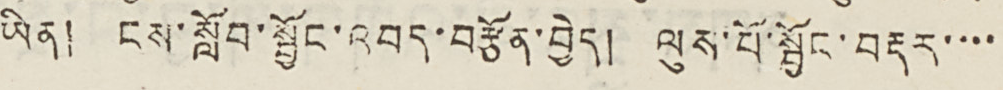ཡིན། ངས་སློབ་སྦྱོང་འབད་བརྩོན་བྱེད། ལུས་པོ་སྦྱོང་བརྡར་་་་
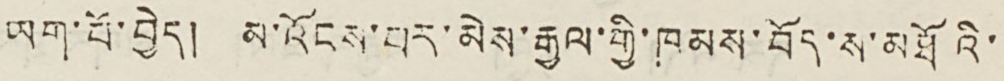ཡག་པོ་བྱེད། མ་འོངས་བར་མེས་རྒྱལ་གྱི་ཁམས་བོད་ས་མཐོའི་
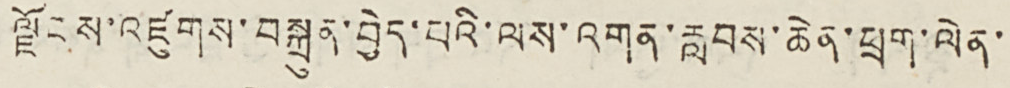ལྗོངས་འཛུགས་བསྐྲུན་བྱེད་པའི་ལས་འགན་རླབས་ཆེན་ཕྲག་ལེན་
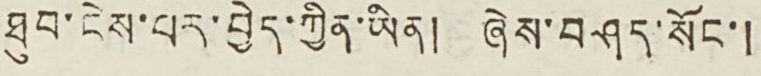ཐུབ་ངེས་པར་བྱེད་ཀྱིན་ཡིན། ཞེས་བཤད་སོང་།
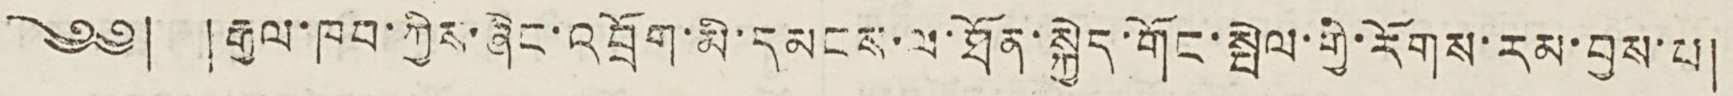༄༅། །རྒྱལ་ཁབ་ཀྱིས་ཞིང་འབྲོག་མི་དམངས་ལ་ཐོན་སྐྱེད་གོང་སྤེལ་གྱི་རོགས་རམ་བྱས་པ།
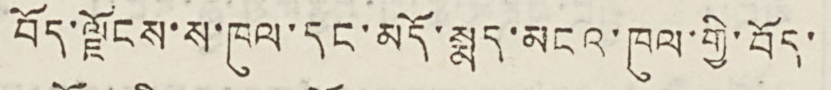བོད་ལྗོངས་ས་ཁུལ་དང་མདོ་སྨད་མངའ་ཁུལ་གྱི་བོད་
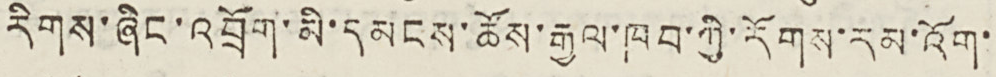རིགས་ཞིང་འབྲོག་མི་དམངས་ཚོས་རྒྱལ་ཁབ་ཀྱི་རོགས་རམ་འོག་
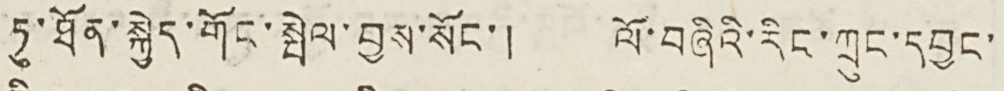ཏུ་ཐོན་སྐྱེད་གོང་སྤེལ་བྱས་སོང་། ལོ་བཞིའི་རིང་ཀྲུང་དབྱང་
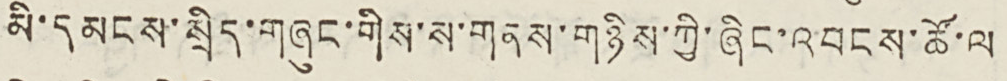མི་དམངས་སྲིད་གཞུང་གིས་ས་གནས་གཉིས་ཀྱི་ཞིང་འབངས་ཚོ་ལ་
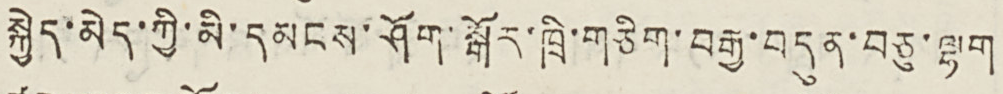སྐྱེད་མེད་ཀྱི་མི་དམངས་ཤོག་སྒོར་ཁྲི་གཅིག་བརྒྱ་བདུན་བཅུ་ལྷག
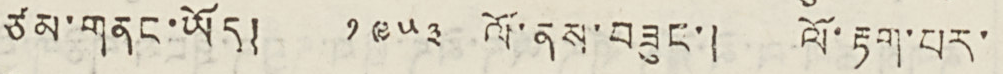ཙམ་གནང་ཡོད། ༡༩༥༣ ལོ་ནས་བཟུང་། ལོ་རྟག་པར་
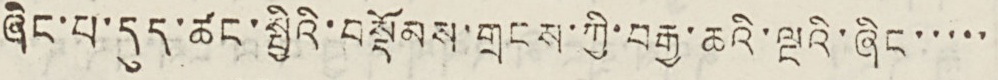ཞིང་པ་དུད་ཚང་སྤྱིའི་བསྡོམས་གྲངས་ཀྱི་བརྒྱ་ཆའི་ལྔའི་ཞིང་་་་་
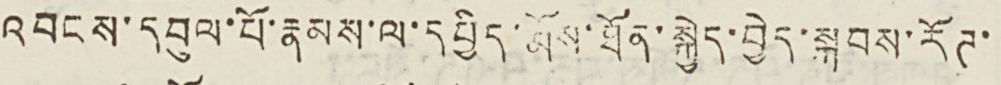འབངས་དབུལ་པོ་རྣམས་ལ་དཔྱིད་རྨོས་ཐོན་སྐྱེད་བྱེད་སྐབས་རོཊ་
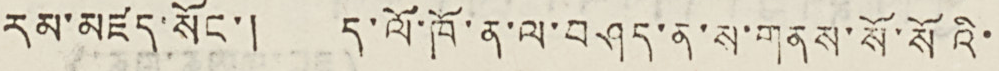རམ་མཛད་སོང་། ད་ལོ་ཁོ་ན་ལ་བཤད་ན་ས་གནས་སོ་སོའི་
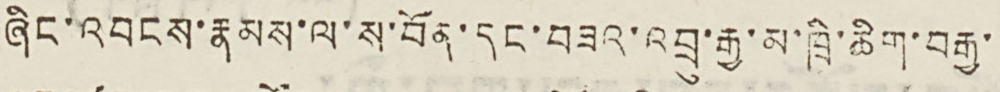ཞིང་འབངས་རྣམས་ལ་ས་བོན་དང་བཟའ་འབྲུ་རྒྱ་མ་ཁྲི་ཆིག་བརྒྱ་
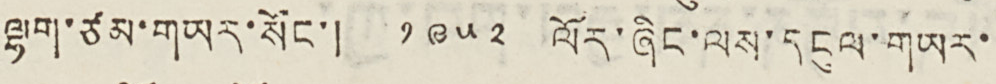ལྷག་ཙམ་གཡར་སོང་། ༡༩༥༢ ལོར་ཞིང་ལས་དངུལ་གཡར་
